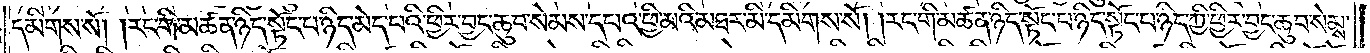དམིགས་སོ། །རང་གི་མཚན་ཉིད་སྟོང་པ་ཉིད་མེད་པའི་ཕྱིར་བྱང་ཆུབ་སེམས་དཔའ་ཕྱི་མའི་མཐར་མི་དམིགས་སོ། །རང་གི་མཚན་ཉིད་སྟོང་པ་ཉིད་སྟོང་པ་ཉིད་ཀྱི་ཕྱིར་བྱང་ཆུབ་སེམས་
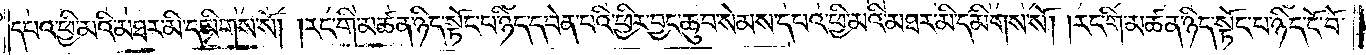དཔའ་ཕྱི་མའི་མཐར་མི་དམིགས་སོ། །རང་གི་མཚན་ཉིད་སྟོང་པ་ཉིད་དབེན་པའི་ཕྱིར་བྱང་ཆུབ་སེམས་དཔའ་ཕྱི་མའི་མཐར་མི་དམིགས་སོ། །རང་གི་མཚན་ཉིད་སྟོང་པ་ཉིད་ངོ་བོ་
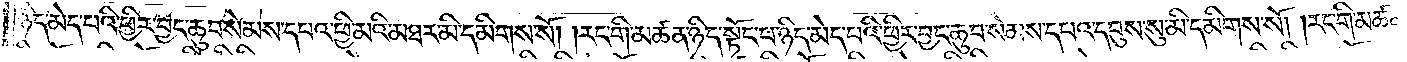ཉིད་མེད་པའི་ཕྱིར་བྱང་ཆུབ་སེམས་དཔའ་ཕྱི་མའི་མཐར་མི་དམིགས་སོ། །རང་གི་མཚན་ཉིད་སྟོང་པ་ཉིད་མེད་པའི་ཕྱིར་བྱང་ཆུབ་སེམས་དཔའ་དབུས་སུ་མི་དམིགས་སོ། །རང་གི་མཚན་
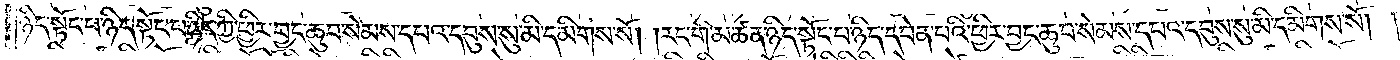ཉིད་སྟོང་པ་ཉིད་སྟོང་པ་ཉིད་ཀྱི་ཕྱིར་བྱང་ཆུབ་སེམས་དཔའ་དབུས་སུ་མི་དམིགས་སོ། །རང་གི་མཚན་ཉིད་སྟོང་པ་ཉིད་དབེན་པའི་ཕྱིར་བྱང་ཆུབ་སེམས་དཔའ་དབུས་སུ་མི་དམིགས་སོ། །
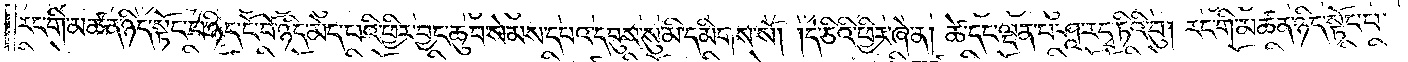རང་གི་མཚན་ཉིད་སྟོང་པ་ཉིད་ངོ་བོ་ཉིད་མེད་པའི་ཕྱིར་བྱང་ཆུབ་སེམས་དཔའ་དབུས་སུ་མི་དམིགས་སོ། །དེ་ཅིའི་ཕྱིར་ཞེ་ན། ཚེ་དང་ལྡན་པ་ཤཱ་རདྭ་ཏིའི་བུ། རང་གི་མཚན་ཉིད་སྟོང་པ་
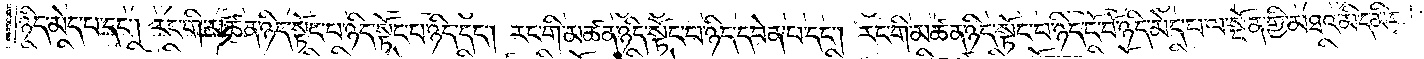ཉིད་མེད་པ་དང༌། རང་གི་མཚན་ཉིད་སྟོང་པ་ཉིད་སྟོང་པ་ཉིད་དང༌། རང་གི་མཚན་ཉིད་སྟོང་པ་ཉིད་དབེན་པ་དང༌། རང་གི་མཚན་ཉིད་སྟོང་པ་ཉིད་ངོ་བོ་ཉིད་མེད་པ་ལ་སྔོན་གྱི་མཐའ་མི་དམིགས།
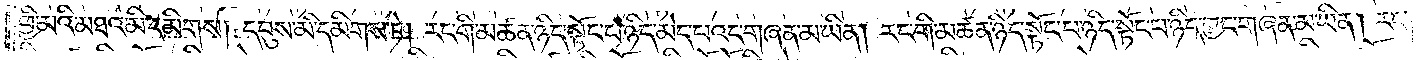ཕྱི་མའི་མཐའ་མི་དམིགས། དབུས་མི་དམིགས་ཏེ། རང་གི་མཚན་ཉིད་སྟོང་པ་ཉིད་མེད་པའང་གཞན་མ་ཡིན། རང་གི་མཚན་ཉིད་སྟོང་པ་ཉིད་སྟོང་པ་ཉིད་ཀྱང་གཞན་མ་ཡིན། རང་
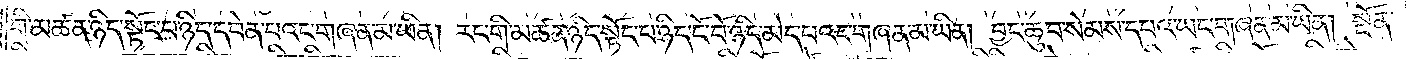གི་མཚན་ཉིད་སྟོང་པ་ཉིད་དབེན་པའང་གཞན་མ་ཡིན། རང་གི་མཚན་ཉིད་སྟོང་པ་ཉིད་ངོ་བོ་ཉིད་མེད་པའང་གཞན་མ་ཡིན། བྱང་ཆུབ་སེམས་དཔའ་ཡང་གཞན་མ་ཡིན། སྔོན་
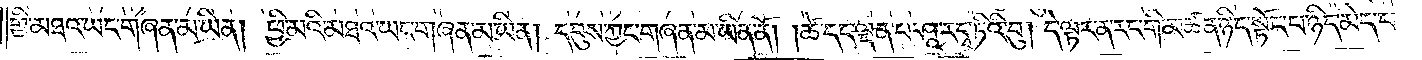གྱི་མཐའ་ཡང་གཞན་མ་ཡིན། ཕྱི་མའི་མཐའ་ཡང་གཞན་མ་ཡིན། དབུས་ཀྱང་གཞན་མ་ཡིན་ནོ། །ཚེ་དང་ལྡན་པ་ཤཱ་རདྭ་ཏིའི་བུ། དེ་ལྟར་ན་རང་གི་མཚན་ཉིད་སྟོང་པ་ཉིད་མེད་པ་
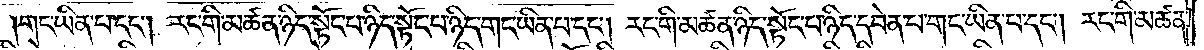གང་ཡིན་པ་དང༌། རང་གི་མཚན་ཉིད་སྟོང་པ་ཉིད་སྟོང་པ་ཉིད་གང་ཡིན་པ་དང༌། རང་གི་མཚན་ཉིད་སྟོང་པ་ཉིད་དབེན་པ་གང་ཡིན་པ་དང༌། རང་གི་མཚན་
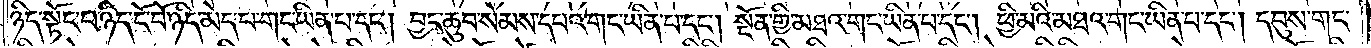ཉིད་སྟོང་པ་ཉིད་ངོ་བོ་ཉིད་མེད་པ་གང་ཡིན་པ་དང༌། བྱང་ཆུབ་སེམས་དཔའ་གང་ཡིན་པ་དང༌། སྔོན་གྱི་མཐའ་གང་ཡིན་པ་དང༌། ཕྱི་མའི་མཐའ་གང་ཡིན་པ་དང༌། དབུས་གང་
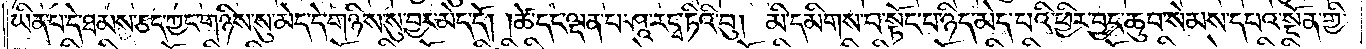ཡིན་པ་དེ་ཐམས་ཅད་ཀྱང་གཉིས་སུ་མེད་དེ་གཉིས་སུ་བྱར་མེད་དོ། །ཚེ་དང་ལྡན་པ་ཤཱ་རདྭ་ཏིའི་བུ། མི་དམིགས་པ་སྟོང་པ་ཉིད་མེད་པའི་ཕྱིར་བྱང་ཆུབ་སེམས་དཔའ་སྔོན་གྱི་
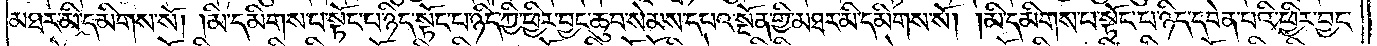མཐར་མི་དམིགས་སོ། །མི་དམིགས་པ་སྟོང་པ་ཉིད་སྟོང་པ་ཉིད་ཀྱི་ཕྱིར་བྱང་ཆུབ་སེམས་དཔའ་སྔོན་གྱི་མཐར་མི་དམིགས་སོ། །མི་དམིགས་པ་སྟོང་པ་ཉིད་དབེན་པའི་ཕྱིར་བྱང་
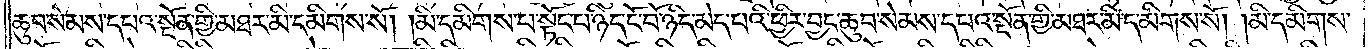ཆུབ་སེམས་དཔའ་སྔོན་གྱི་མཐར་མི་དམིགས་སོ། །མི་དམིགས་པ་སྟོང་པ་ཉིད་ངོ་བོ་ཉིད་མེད་པའི་ཕྱིར་བྱང་ཆུབ་སེམས་དཔའ་སྔོན་གྱི་མཐར་མི་དམིགས་སོ། །མི་དམིགས་
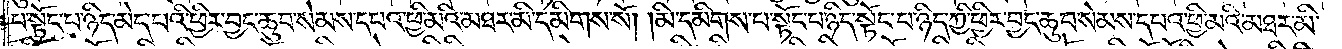པ་སྟོང་པ་ཉིད་མེད་པའི་ཕྱིར་བྱང་ཆུབ་སེམས་དཔའ་ཕྱི་མའི་མཐར་མི་དམིགས་སོ། །མི་དམིགས་པ་སྟོང་པ་ཉིད་སྟོང་པ་ཉིད་ཀྱི་ཕྱིར་བྱང་ཆུབ་སེམས་དཔའ་ཕྱི་མའི་མཐར་མི་
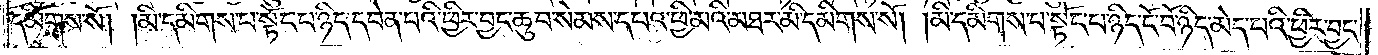དམིགས་སོ། །མི་དམིགས་པ་སྟོང་པ་ཉིད་དབེན་པའི་ཕྱིར་བྱང་ཆུབ་སེམས་དཔའ་ཕྱི་མའི་མཐར་མི་དམིགས་སོ། །མི་དམིགས་པ་སྟོང་པ་ཉིད་ངོ་བོ་ཉིད་མེད་པའི་ཕྱིར་བྱང་
